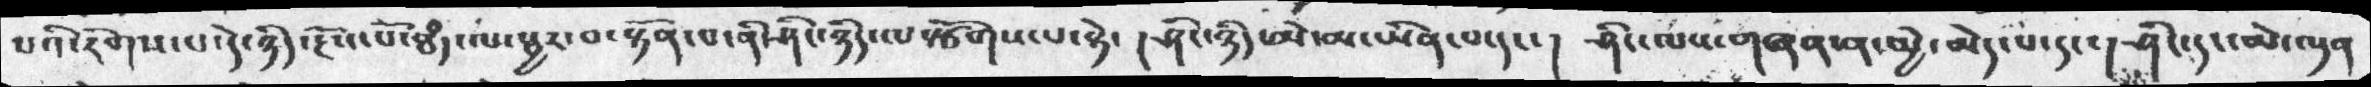པའི་རིགས་པ་དེ་ཉིད་རྔོས་པོ་ཐཾད་ལ་སྦྱར་བ་སྟོན་པ་ནི་ཤིང་ཉིད་ལསྩོགས་པ་སྟེ་ །ཤིང་ཉིད་མེ་མ་ཡིན་པ་དང་།  ཤིང་ལས་གཞན་ན་མྱེ་མེད་པ་དང་། ཤིང་དང་མེ་ལྡན
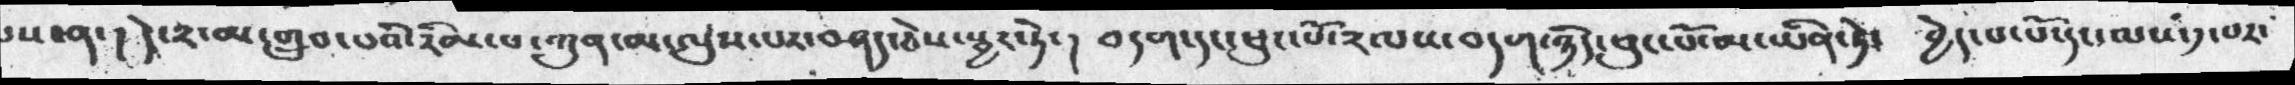་ས་ན་།  དེ་༢་མ་གྲུབ་པའི་རིམ་པ་ཀུན་མ་ལུས་པར་བཤད་ཅེས་སྦྱར་ཏེ་།  བདག་དང་ཕུང་པོ་༢ལས་བདག་ཉིད་ཕུང་པོ་མ་ཡིན་ཏེ་  བྱེད་པ་པོ་དང་ལས་༡་པར་
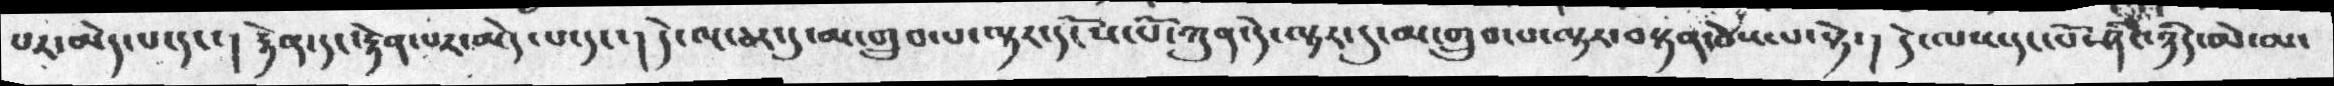པར་མེད་པ་དང་།  རྟེན་དང་རྟེན་པར་མེད་པ་དང་། དེ་ལྔ་ཅར་དུ་མ་གྲུབ་པ་ལྟར་དངོས་པོ་ཀུན་དེ་ལྟར་དུ་མ་གྲུབ་པ་ལྟར་བསྟན་ཅེས་པ་སྟེ་།  དེ་ལས་དང་པོ་ཤིང་ཉིད་མེ་མ་
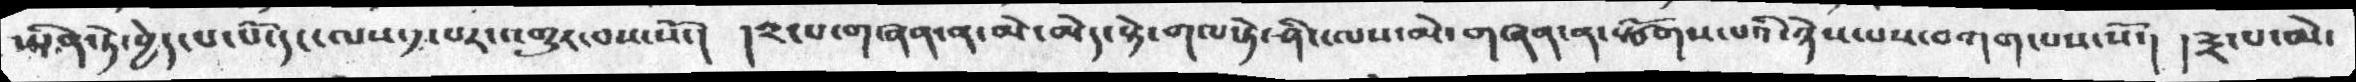ཡིན་ཏེ་བྱེད་པ་པོ་དང་ལས་༡་པར་འགྱུར་བས་སོ་།  །༢་པ་གཞན་ན་མེ་མེད་སྟེ་གལ་ཏེ་ཤིང་ལས་མེ་གཞན་ན་སྩོགས་པའི་ཉེས་པས་བཀག་པས་སོ་།  །༣་པ་མེ་
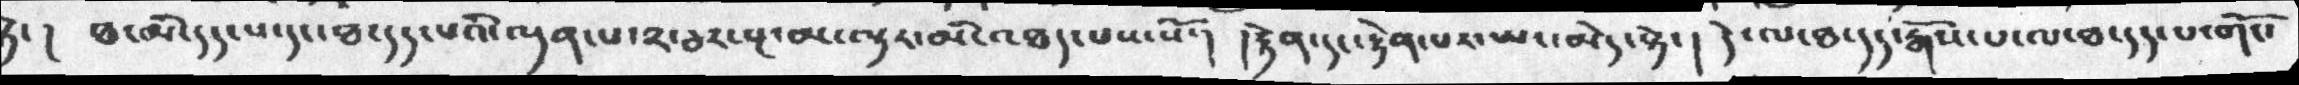སྟེ་། ཐ་མི་དད་པ་དང་ཐ་དད་པའི་ལྡན་པ་༢་ཅར་སྔ་མ་ལྟར་མི་འཐད་པས་སོ་། །རྟེན་དང་རྟེན་པར་ཡང་མེད་སྟེ་། དེ་ལ་ཐ་དད་རྒོས་པ་ལ་ཐ་དད་པ་གོང་
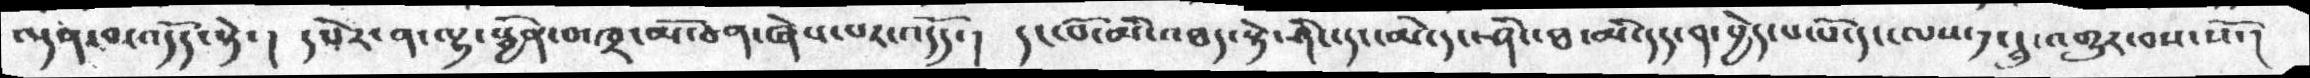ལྡན་བར་འདོད་སྟེ་།  དཔེར་ན་ལྷ་སྦྱིན་བ་ཁྲ་མོ་ཅན་ཞེས་པར་འདོད་།   དང་པོ་མི་འཐད་སྟེ་ཤིང་དང་མེ་དང་ཤིང་ཐ་མི་དད་ན་བྱེད་པ་པོ་དང་ལས་༡་དྭུ་འགྱུར་བས་སོ་།
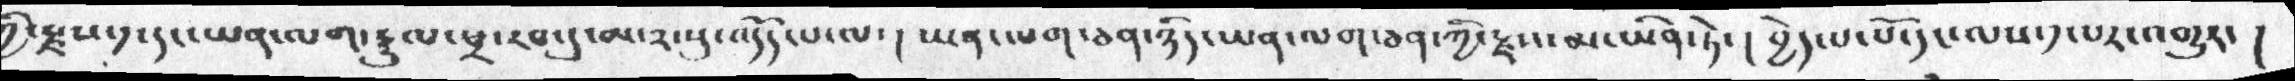ཀྱི་སྗས་༡་དང་ཡན་ལག་རྡུལ་ཕྲ་རབ་དུ་མ་༢་སུ་འདོད་པ་ལ་ ། ཡན་ལག་ཅན་ཉིད་ཡན་ལག་ཅན་ཀྱི་རྗས་མ་ཡིན་ཏེ་ ། བྱེད་པ་པོ་དང་ལས་༡་པར་འགྱུར་ །
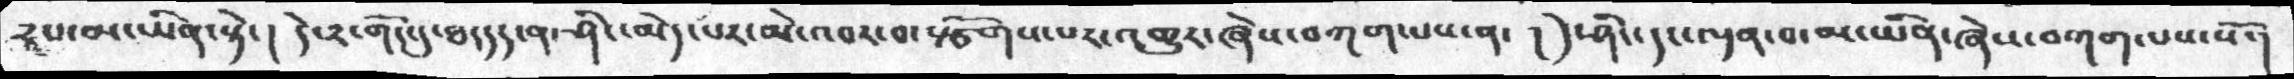༢པ་མ་ཡིན་སྟེ་ ། དེ་༢་གོང་དུ་ཐ་དད་ན་ཤིང་མེད་པར་མེ་འབར་བ་སྩོགས་པར་འགྱུར་ཞེས་བཀག་པས་ན་  ། དེ་ཤིང་དང་ལྡན་པ་མ་ཡིན་ཞེས་བགག་པས་སོ་།
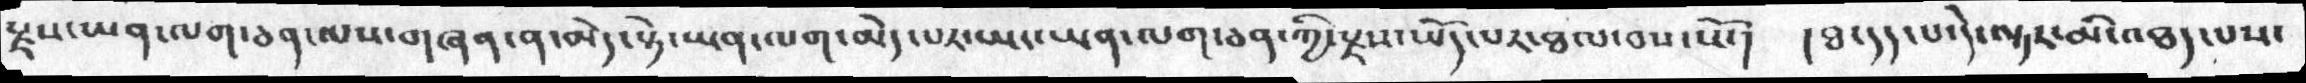སྗས་ཡན་ལག་ཅན་ལས་གཞན་ན་མེད་སྟེ་ཡན་ལག་མེད་པར་ཡང་ཡན་ལག་ཅན་ཀྱི་སྗས་ཡོད་པར་ཐལ་བས་སོ་།  ། ཐ་དད་པ་དེ་ལྟར་མི་འཐད་པས་
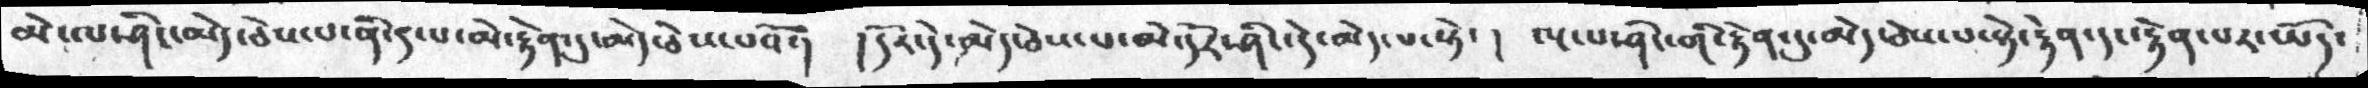མེ་ལ་ཤིང་མེད་ཅེས་པ་ནི་༩་པ་མེ་རྟེན་དུ་མེད་ཅེས་པའོ་།  །དོར་དེ་མེད་ཅེས་པ་མེ་དོར་ཤིང་དེ་མེད་པ་སྟེ་ ། ལྔ་པ་ཤིང་གི་རྟེན་དུ་མེད་ཅེས་པ་སྟེ་རྟེན་དང་རྟེན་པར་ཡོད་
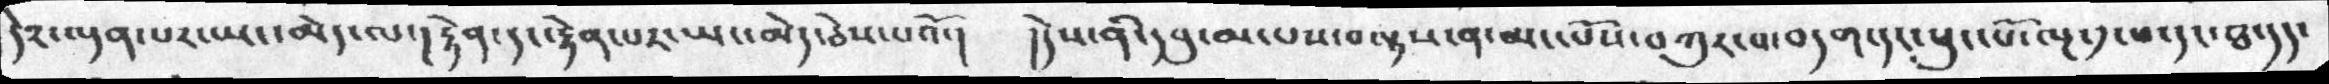དེར་ལྡན་པར་ཡང་མེད་ལ་།  རྟེན་དང་རྟེན་པར་ཡང་མེད་ཅེས་པའོ་།   །དེས་ནི་དབུ་མ་པས་བལྟས་ན་མང་པོས་བཀུར་ས་བདག་དང་ཕུང་པོ་ལྔ་༡་ཕ་དང་ཐ་དད་
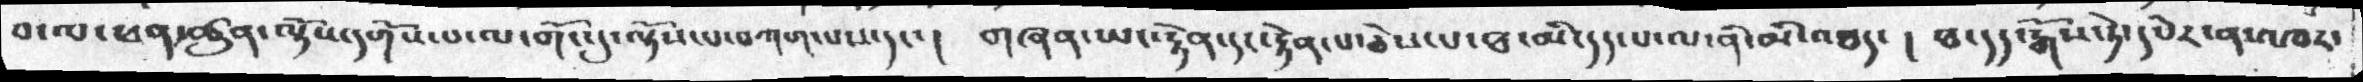བ་ལ་ཕན་ཚུན་ལྟོས་དགོས་པ་ལ་གོང་དུ་ལྟོས་པ་བཀག་པས་དང་།  གཞན་ཡང་རྟེན་དང་རྟེན་པ་ཅེས་པ་ཐ་མི་དད་པ་ལ་ནི་མི་འཐད་ ། ཐ་དད་རྒོས་ཏེ་དཔེར་ན་འཁར་
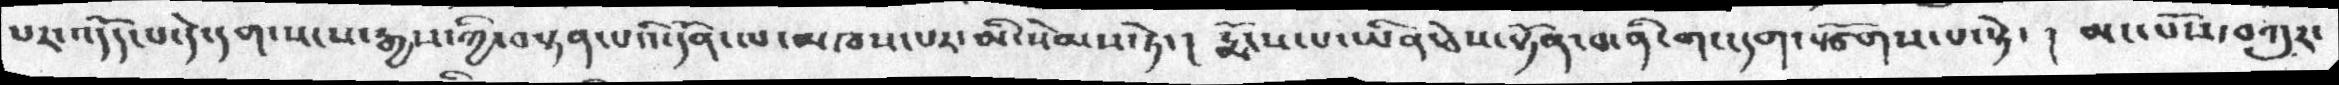པར་འདོད་པ་དེ་དག་སངས་རྒྱས་ཀྱི་བསྟན་པའི་དོན་ལ་མཁས་པར་མི་སེམས་ཏེ་།  རྨོངས་པ་ཡིན་ཅེས་སྟོན་པ་ནི་གང་དག་སྩོགས་པ་སྟེ་ །  མང་པོས་བཀུར་
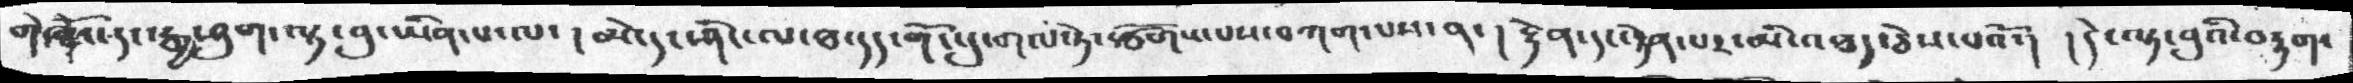གེཞོའ་དང་རྒྱ་ཤུག་ལྟ་བུ་ཡིན་པ་ལ་ ། མེ་དང་ཤིང་ལ་ཐ་དད་གོང་དུ་གལ་ཏེ་རྩོགས་པས་བཀག་པས་ན་ །  རྟེན་དང་རྟེན་པར་མི་འཐད་ཅེས་པའོ་།  ། དེ་ལྟ་བུའི་བརྟགས་
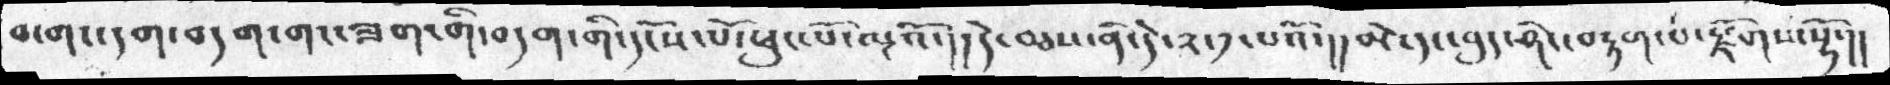བ་གང་དག་བདག་གང་ཟག་གི་བདག་གི་དངོས་པོ་ཕུང་པོ་ལྔའོ་།། དེ་བཅས་ནི་དེ་༢་༡་པའོ་།། མེ་དང་བུད་ཤིང་བརྟག་པ་རྫོགས་སྷོ་།།
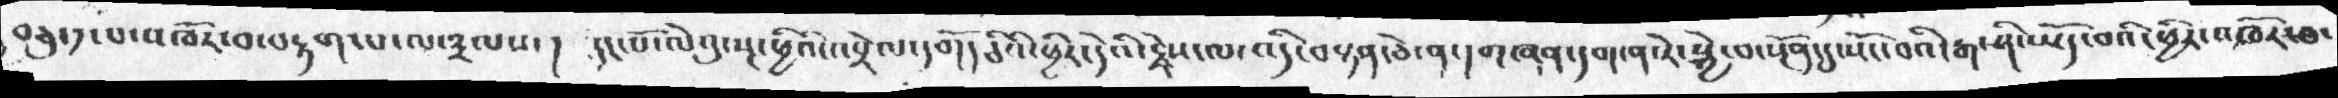བཅུ་༡་པ་འཁོར་བ་བརྟག་པ་ལ་༣ལས་།  དང་པོ་ལེའུ་སྔ་ཕྱིའི་འབྲེལ་དགོདཅིའི་ཕྱིར་དེའི་རྗེས་ལ་འདི་བསྟན་ཅེ་ན་།གཞན་དག་ན་རེ་སྐྱེ་བ་སྔོན་དུ་སོང་བའི་རྒ་ཤི་ཡོད་བའི་ཕྱིར་འཁོར་བ་
